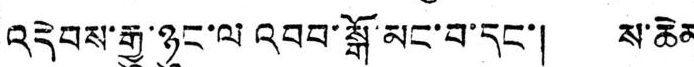འདེབས་རྒྱུ་ཉུང་ལ འབབ་སྒོ་མང་བ་དང་། ས་ཆེན
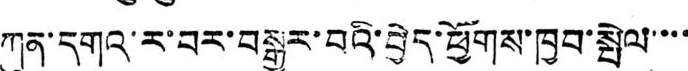ཀུན་དགའ་ར་བར་བསྒྱུར་བའི་བྱེད་ཕྱོགས་ཁྱབ་སྤེལ་་་་
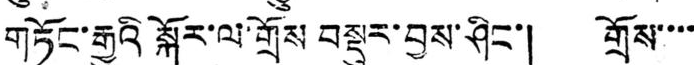གཏོང་རྒྱུའི སྐོར་ལ་གྲོས བསྡུར་བྱས་ཤིང་། གྲོས་་་་
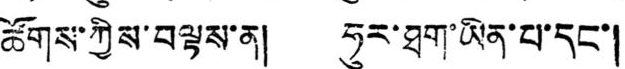ཚོགས་ཀྱིས་བལྟས་ན། ཧུར་ཐག་ཡིན་པ་དང་།
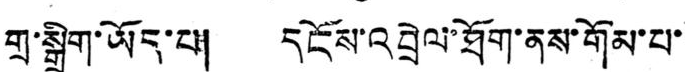གྲ་སྒྲིག་ཡོད་པ། དངོས་འབྲེལ་ཐོག་ནས་གོམ་པ་་
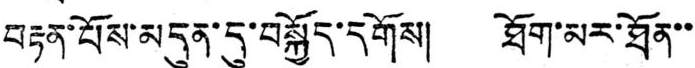བརྟན་པོས་མདུན་དུ་བསྐྱོད་དགོས། ཐོག་མར་ཐོན་་
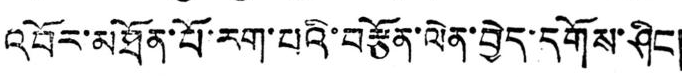འབོར་མཐོན་པོ་རག་པའི་བརྩོན་ལེན་བྱེད་དགོས་ཤིང།
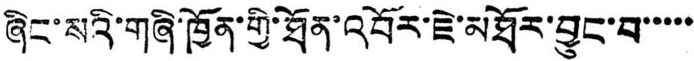ཞིང་སའི་གཞི་ཁྱོན་གྱི་ཐོན་འབོར་ཇེ་མཐོར་བྱུང་བ་་་་་
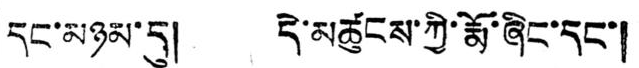དང་མཉམ་དུ། དེ་མཚུངས་ཀྱི་རྨོ་ཞིང་དང་།
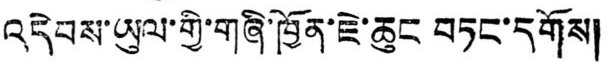འདེབས་ཡུལ་གྱི་གཞི་ཁྱོན་ཇེ་ཆུང བཏང་དགོས།
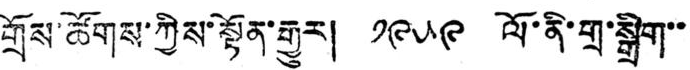གྲོས་ཚོགས་ཀྱིས་སྟོན་རྒྱུར། ༡༩༥༩ ལོ་ནི་གྲ་སྒྲིག་་
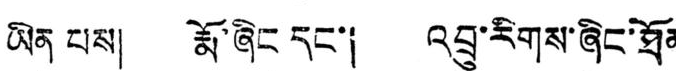ཡིན པས། རྨོ་ཞིང དང་། འབྲུ་རིགས་ཞིང་ཐོན་
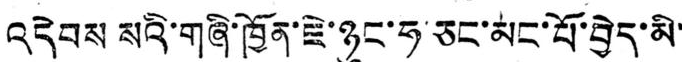འདེབས སའི་གཞི་ཁྱོན་ཇེ་ཉུང་ཧ་ཅང་མང་པོ་བྱེད་མི་་
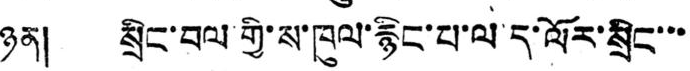ཉན། སྲིང་བལ་གྱི་ས་ཁུལ་རྙིང་པ་ལ ད་ལོར་སྲིང་་་
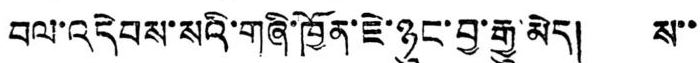བལ་འདེབས་སའི་གཞི་ཁྱོན་ཇེ་ཉུང་བྱ་རྒྱུ་མེད། ས་་
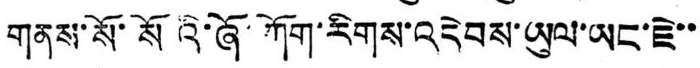གནས་སོ་སོའི་ཞོ་ཀོག་རིགས་འདེབས་ཡུལ་ཡང་ཇེ་་
